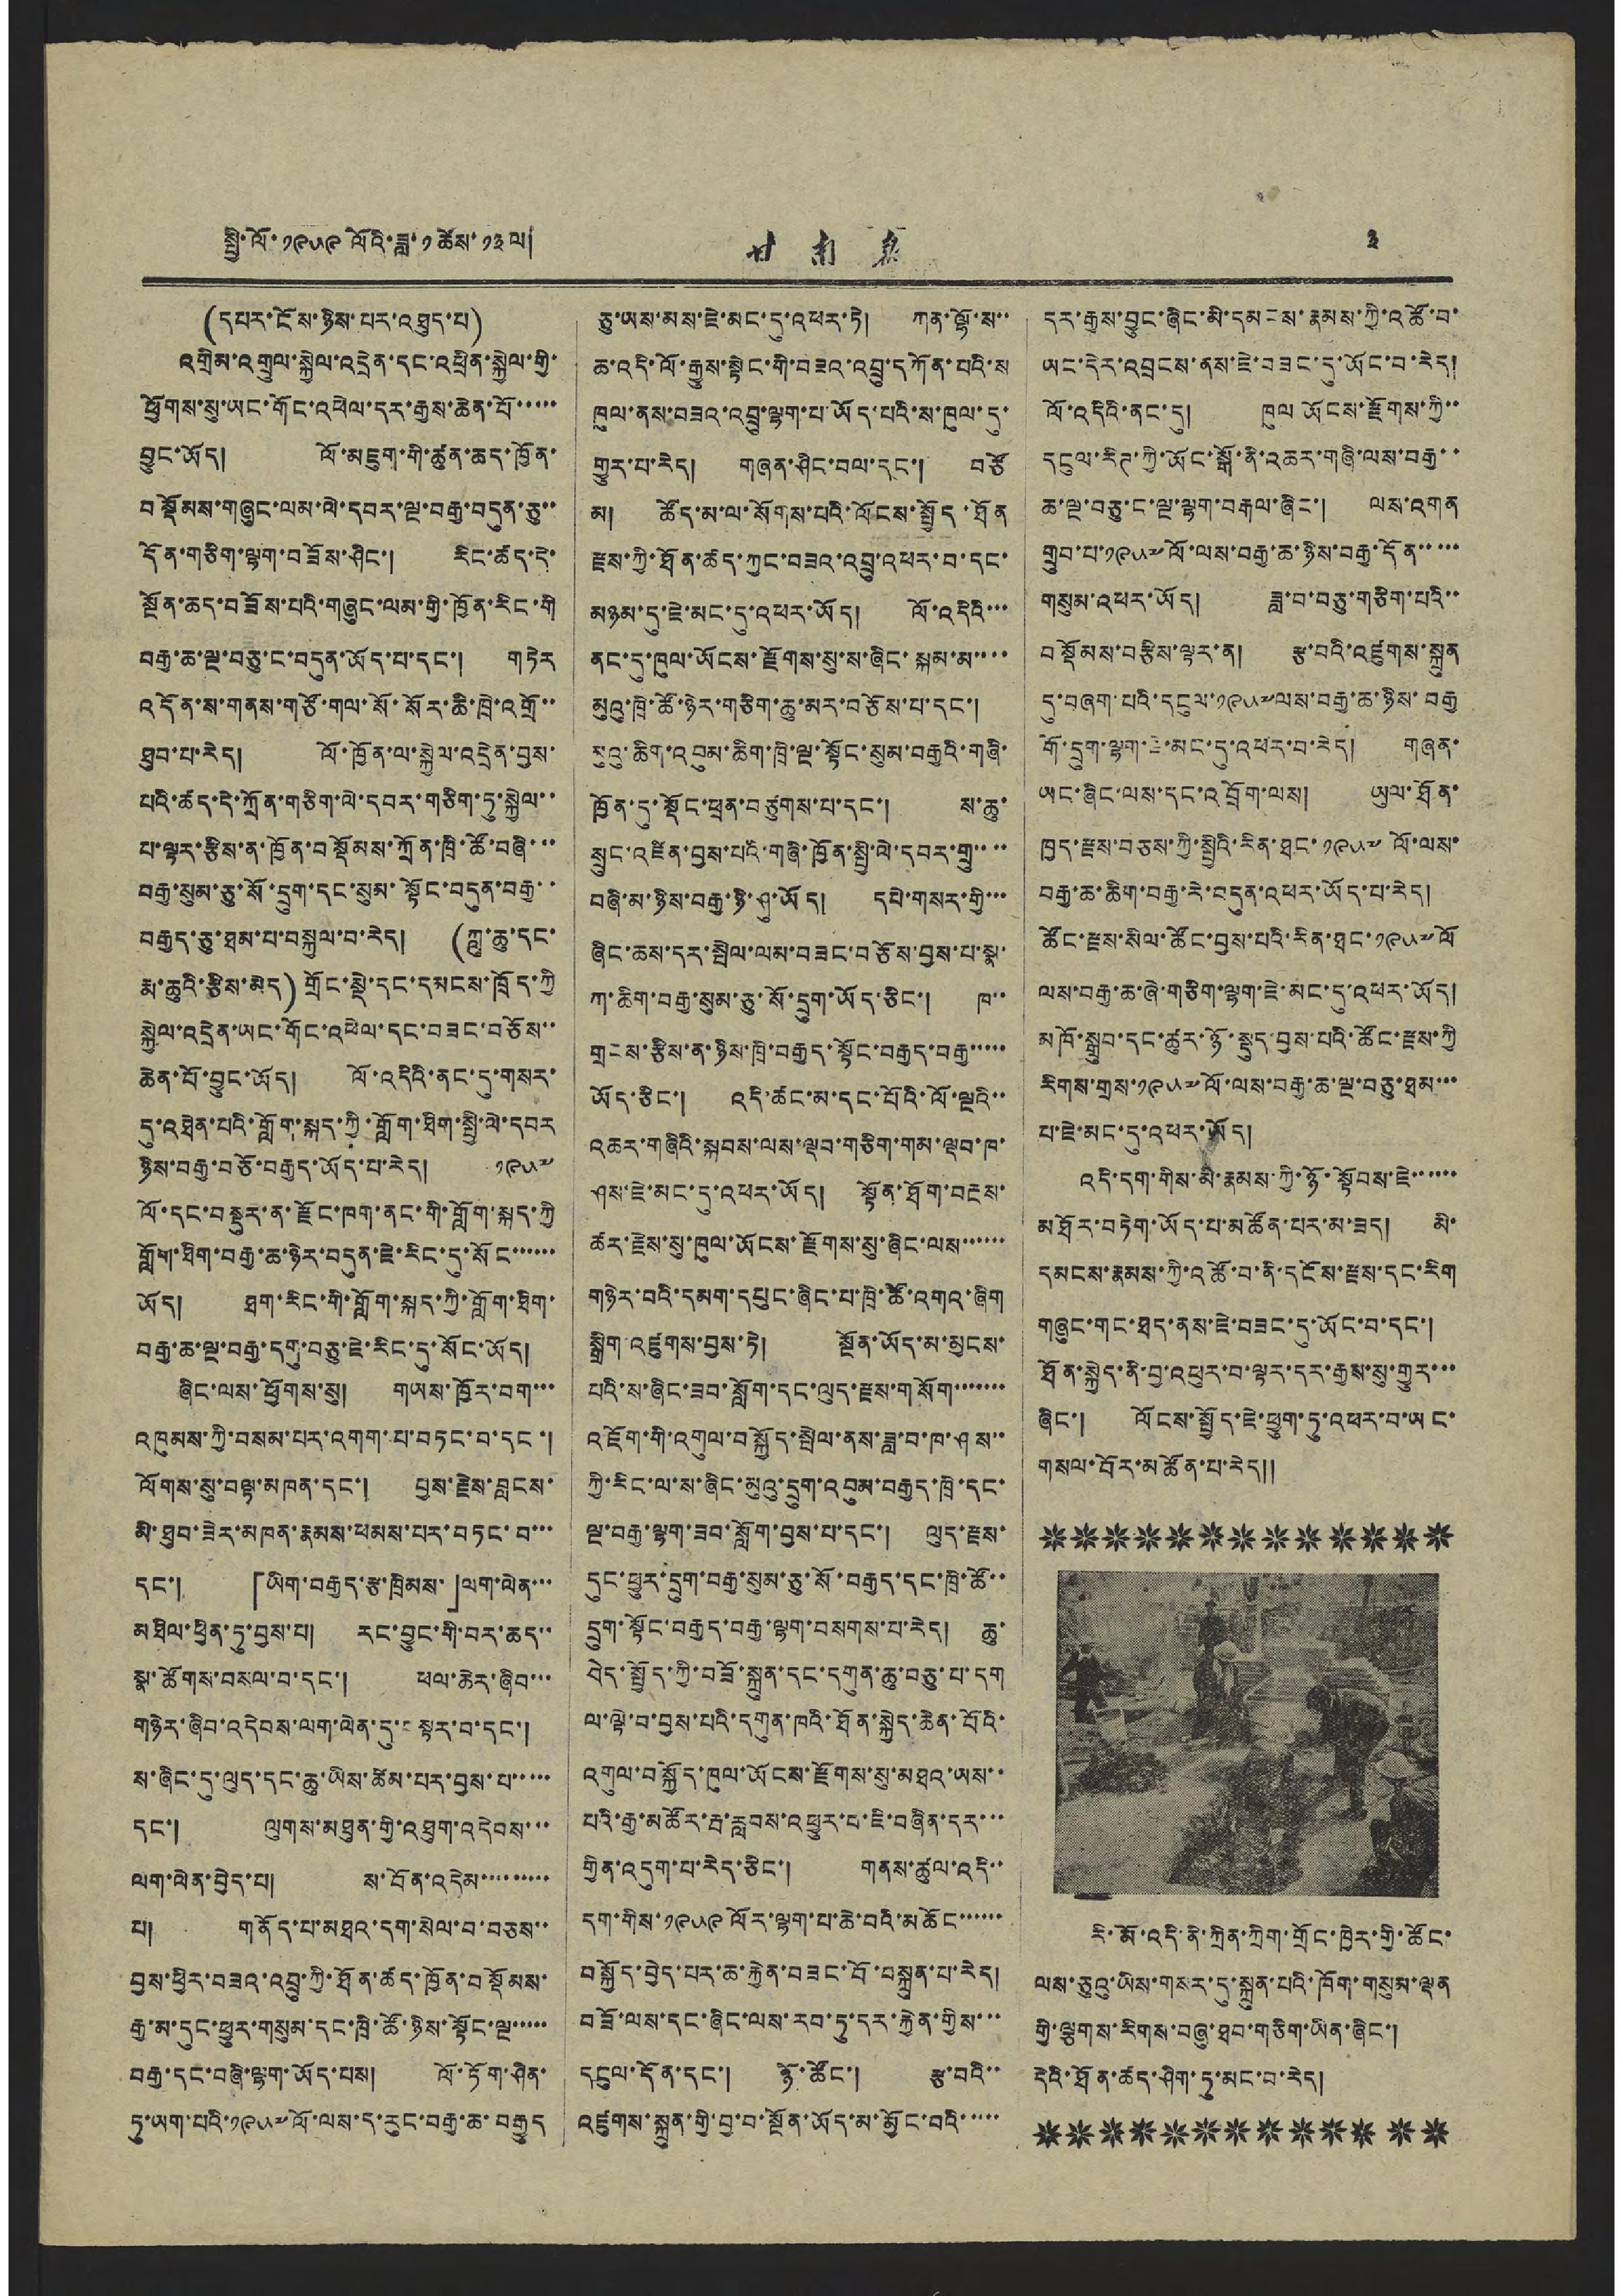སྤྱི་ལོ་ ༡༩༥༩ ལོའི་ཟླ་ ༡ ཚེས་ ༡༣ ལ། 甘 南 報 ༣
(དཔར་ངོས་ཉིས་པར་འཐུད་པ)
འགྲིམ་འགྲུལ་སྐྱེལ་འདྲེན་དང་འཕྲིན་སྐྱེལ་གྱི་
ཕྱོགས་སུ་ཡང་གོང་འཕེལ་དར་རྒྱས་ཆེན་པོ་་་་་
བྱུང་ཡོད། ལོ་མཇུག་གི་ཚུན་ཆད་ཁྱོན་
བསྡོམས་གཞུང་ལམ་ལེ་དབར་ལྔ་བརྒྱ་བདུན་ཅུ་་
དོན་གཅིག་ལྷག་བཟོས་ཤིང་། རིང་ཚད་དེ་
སྔོན་ཆད་བཟོས་པའི་གཞུང་ལམ་གྱི་ཁྱོན་རིང་གི
བརྒྱ་ཆ་ལྔ་བཅུ་ང་བདུན་ཡོད་པ་དང་། གཏེར
འདོན་ས་གནས་གཙོ་གལ་སོ་སོར་ཆི་ཁྲེ་འགྲོ་་
ཐུབ་པ་རེད། ལོ་ཁྱོན་ལ་སྐྱེལ་འདྲེན་བྱས་
པའི་ཚད་དེ་ཀྲོན་གཅིག་ལེ་དབར་གཅིག་ཏུ་སྐྱེལ་་
པ་ལྟར་རྩིས་ན་ཁྱོན་བསྡོམས་ཀྲོན་ཁྲི་ཚོ་བཞི་་་
བརྒྱ་སུམ་ཅུ་སོ་དྲུག་དང་སུམ་སྟོང་བདུན་བརྒྱ་་
བརྒྱད་ཅུ་ཐམ་པ་བསྐྱལ་བ་རེད། (ཀླུ་ཆུ་དང་
རྨ་ཆུའི་རྩིས་མེད) གྲོང་སྡེ་དང་དམངས་ཁྲོད་ཀྱི
སྐྱེལ་འདྲེན་ཡང་གོང་འཕེལ་དང་བཟང་བཅོས་་
ཆེན་པོ་བྱུང་ཡོད། ལོ་འདིའི་ནང་དུ་གསར་
དུ་འཐེན་པའི་གློག་སྐད་ཀྱི་གློག་ཐིག་སྤྱི་ལེ་དབར
ཉིས་བརྒྱ་བཅོ་བརྒྱད་ཡོད་པ་རེད། ༡༩༥༧
ལོ་དང་བསྡུར་ན་རྫོང་ཁག་ནང་གི་གློག་སྐད་ཀྱི
གློག་ཐིག་བརྒྱ་ཆ་ཉེར་བདུན་ཇེ་རིང་དུ་སོང་་་་་་
ཡོད། ཐག་རིང་གི་གློག་སྐད་ཀྱི་གློག་ཐིག་
བརྒྱ་ཆ་ལྔ་བརྒྱ་དགུ་བཅུ་ཇེ་རིང་དུ་སོང་ཡོད།
ཞིང་ལས་ཕྱོགས་སུ། གཡས་ཁྱོར་བག་་་
འཁུམས་ཀྱི་བསམ་པར་འགག་པ་བཏང་བ་དང་།
ལོགས་སུ་བལྟ་མཁན་དང་། བྱས་རྗེས་བླངས་
མི་ཐུབ་ཟེར་མཁན་རྣམས་ཕམས་པར་བཏང་བ་་་
དང་། 「ཡིག་བརྒྱད་རྩ་ཁྲིམས་」ལག་ལེན་་་
མཐིལ་ཕྱིན་ཏུ་བྱས་པ། རང་བྱུང་གི་བར་ཆད་་
སྣ་ཚོགས་བསལ་བ་དང་། ཕལ་ཆེར་ཞིབ་་་
གཉེར་ཞིབ་འདེབས་ལག་ལེན་དུ་བསྟར་བ་དང་།
ས་ཞིང་དུ་ལུད་དང་ཆུ་ཡིས་ཚེམ་པར་བྱས་པ་་་་་
དང་། ལུགས་མཐུན་གྱི་འཐུག་འདེབས་་་
ལག་ལེན་བྱེད་པ། ས་བོན་འདེམ་་་་་་་་་
པ། གནོད་པ་མཐའ་དག་སེལ་བ་བཅས་་
བྱས་ཕྱིར་བཟའ་འབྲུ་ཀྱི་ཐོན་ཚད་ཁྱོན་བསྡོམས་
རྒྱ་མ་དུང་ཕྱུར་གསུམ་དང་ཁྲི་ཚོ་ཉིས་སྟོང་ལྔ་་་་་
བརྒྱ་དང་བཞི་ལྷག་ཡོད་པས། ལོ་ཏོག་ཤིན་
ཏུ་ཡག་པའི་ ༡༩༥༧ ལོ་ལས་ད་རུང་བརྒྱ་ཆ་བརྒྱུད
ཅུ་ཡས་མས་ཇེ་མང་དུ་འཕར་ཏེ། ཀན་ལྷོ་ས་་
ཆ་འདི་ལོ་རྒྱུས་སྟེང་གི་བཟའ་འབྲུ་དཀོན་པའི་ས
ཁུལ་ནས་བཟའ་འབྲུ་ལྷག་པ་ཡོད་པའི་ས་ཁུལ་དུ་
གྱུར་པ་རེད། གཞན་ཤིང་བལ་དང་། བཙོ
མ། ཚོད་མ་ལ་སོགས་པའི་ལོངས་སྤྱོད་ཐོན
རྫས་ཀྱི་ཐོན་ཚད་ཀྱང་བཟའ་འབྲུ་འཕར་བ་དང་
མཉམ་དུ་ཇེ་མང་དུ་འཕར་ཡོད། ལོ་འདིའི་་་
ནང་དུ་ཁུལ་ཡོངས་རྫོགས་སུ་ས་ཞིང་སྐམ་མ་་་་
མུའུ་ཁྲི་ཚོ་ཉེར་གཅིག་ཆུ་མར་བཅོས་པ་དང་།
མུའུ་ཆིག་འབུམ་ཆིག་ཁྲི་ལྔ་སྟོང་སུམ་བརྒྱའི་གཞི་
ཁྱོན་དུ་སྡོང་ཕྲན་བཙུགས་པ་དང་། ས་ཆུ་
སྲུང་འཛིན་བྱས་པའི་གཞི་ཁྱོན་སྤྱི་ལེ་དབར་གྲུ་་་་
བཞི་མ་ཉིས་བརྒྱ་ཉི་ཤུ་ཡོད། དཔེ་གསར་གྱི་་་
ཞིང་ཆས་དར་སྤེལ་ལམ་བཟང་བཅོས་བྱས་པ་སྣ་
ཀ་ཆིག་བརྒྱ་སུམ་ཅུ་སོ་དྲུག་ཡོད་ཅིང་། ཁ་་
གྲངས་རྩིས་ན་ཉིས་ཁྲི་བརྒྱད་སྟོང་བརྒྱད་བརྒྱ་་་་་
ཡོད་ཅིང་། འདི་ཚང་མ་དང་པོའི་ལོ་ལྔའི་་
འཆར་གཞིའི་སྐབས་ལས་ལྡབ་གཅིག་གམ་ལྡབ་ཁ་
ཤས་ཇེ་མང་དུ་འཕར་ཡོད། སྟོན་ཐོག་བརྔས་
ཚར་རྗེས་སུ་ཁུལ་ཡོངས་རྫོགས་སུ་ཞིང་ལས་་་་་་
གཉེར་བའི་དམག་དཔུང་ཞིང་པ་ཁྲི་ཚོ་འགའ་ཞིག
སྒྲིག འཛུགས་བྱས་ཏེ། སྔོན་ཡོད་མ་མྱངས་
པའི་ས་ཞིང་ཟབ་སློག་དང་ལུད་རྫས་གསོག་་་་་་་
འཇོག་གི་འགུལ་བསྐྱོད་སྤེལ་ནས་ཟླ་བ་ཁ་ཤས་་
ཀྱི་རིང་ལ་ས་ཞིང་མུའུ་དྲུག་འབུམ་བརྒྱད་ཁྲི་དང་
ལྔ་བརྒྱ་ལྷག་ཟབ་སློག་བྱས་པ་དང་། ལུད་རྫས་
དུང་ཕྱུར་དྲུག་བརྒྱ་སུམ་ཅུ་སོ་བརྒྱད་དང་ཁྲི་ཚོ་་
དྲུག་སྟོང་བརྒྱད་བརྒྱ་ལྷག་བསགས་པ་རེད། ཆུ་
བེད་སྤྱོད་ཀྱི་བཟོ་སྐྲུན་དང་དགུན་ཆུ་བཅུ་པ་དག
ལ་ལྟེ་བ་བྱས་པའི་དགུན་ཁའི་ཐོན་སྐྱེད་ཆེན་པོའི་
འགུལ་བསྐྱོད་ཁུལ་ཡོངས་རྫོགས་སུ་མཐའ་ཡས་་
པའི་རྒྱ་མཚོར་རྦ་རླབས་འཕྱུར་བ་ཇི་བཞིན་དར་་་
གྱིན་འདུག་པ་རེད་ཅིང་། གནས་ཚུལ་འདི་་
དག་གིས་ ༡༩༥༩ ལོར་ལྷག་པ་ཆེ་བའི་མཆོང་་་་་་
བསྐྱོད་བྱེད་པར་ཆ་རྐྱེན་བཟང་བོ་བསྐྲུན་པ་རེད།
བཟོ་ལས་དང་ཞིང་ལས་རབ་ཏུ་དར་རྐྱེན་གྱིས་་་
དངུལ་དོན་དང་། ཉོ་ཚོང་། རྩ་བའི་་
འཛུགས་སྐྲུན་གྱི་བྱ་བ་སྔོན་ཡོད་མ་མྱོང་བའི་་་་་
དར་རྒྱས་བྱུང་ཞིང་མི་དམངས་རྣམས་ཀྱི་འཚོ་བ་
ཡང་དེར་འབྲངས་ནས་ཇེ་བཟང་དུ་ཡོང་བ་རེད།
ལོ་འདིའི་ནང་དུ། ཁུལ ཡོངས་རྫོགས་ཀྱི་་
དངུལ་རིཊ་ཀྱི་ཡོང་སྒོ་ནི་འཆར་གཞི་ལས་བརྒྱ་་
ཆ་ལྔ་བཅུ་ང་ལྔ་ལྷག་བརྒལ་ཞིང་། ལས་འགན
གྲུབ་པ་ ༡༩༥༧ ལོ་ལས་བརྒྱ་ཆ་ཉིས་བརྒྱ་དོན་་་་་
གསུམ་འཕར་ཡོད། ཟླ་བ་བཅུ་གཅིག་པའི་་
བསྡོམས་བརྩིས་ལྟར་ན། རྩ་བའི་འཛུགས་སྐྲུན
དུ་བཞག་པའི་དངུལ་ ༡༩༥༧ ལོ་ལས་བརྒྱ་ཆ་ཉིས་བརྒྱ
གོ་དྲུག་ལྷག་ཇེ་མང་དུ་འཕར་བ་རེད། གཞན་
ཡང་ཞིང་ལས་དང་འབྲོག་ལས། ཡུལ་ཐོན་
ཁྱད་རྫས་བཅས་ཀྱི་སྤྱིའི་རིན་ཐང་ ༡༩༥༧ ལོ་ལས་
བརྒྱ་ཆ་ཆིག་བརྒྱ་རེ་བདུན་འཕར་ཡོད་པ་རེད།
ཚོང་རྫས་སིལ་ཚོང་བྱས་པའི་རིན་ཐང་ ༡༩༥༧ ལོ
ལས་བརྒྱ་ཆ་ཞེ་གཅིག་ལྷག་ཇེ་མང་དུ་འཕར་ཡོད།
མཁོ་སྒྲུབ་དང་ཚུར་ཉོ་སྡུད་བྱས་པའི་ཚོང་རྫས་ཀྱི
རིགས་གྲས་ ༡༩༥༧ ལོ་ལས་བརྒྱ་ཆ་ལྔ་བཅུ་ཐམ་་་
པ་ཇེ་མང་དུ་འཕར་ཡོད།
འདི་དག་གིས་མི་རྣམས་ཀྱི་ཉོ་སྟོབས་ཇེ་་་་་་
མཐོར་བཏེག་ཡོད་པ་མཚོན་པར་མ་ཟད། མི་
དམངས་རྣམས་ཀྱི་འཚོ་བ་ནི་དངོས་རྫས་དང་རིག
གཞུང་གང་ཐད་ནས་ཇེ་བཟང་དུ་ཡོང་བ་དང་།
ཐོན་སྐྱེད་ནི་བྱ་འཕུར་བ་ལྟར་དར་རྒྱས་སུ་གྱུར་་་
ཞིང་། ལོངས་སྤྱོད་ཇེ་ཕྱུག་ཏུ་འཕར་བ་ཡང་
གསལ་བོར་མཚོན་པ་རེད༎
རི་མོ་འདི་ནི་ཀྲིན་ཀྲིག་གྲོང་ཁྱེར་གྱི་ཚོང་
ལས་ཅུའུ་ཡིས་གསར་དུ་སྐྲུན་པའི་ཁོག་གསུམ་ལྡན
གྱི་ལྕགས་རིགས་བཞུ་ཐབ་གཅིག་ཡིན་ཞིང་།
དེའི་ཐོན་ཚད་ཤིག་ཏུ་མང་བ་རེད།
